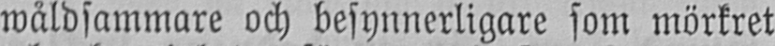wåldsammare och besynnerligare som mörkret
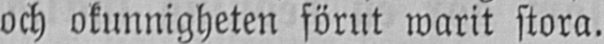och okunnigheten förut warit stora.
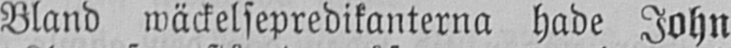Bland wäckelsepredikanterna hade John
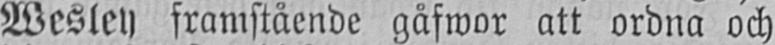Wesley framstående gåfwor att ordna och
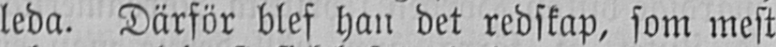leda. Därför blef han det redskap, som mest
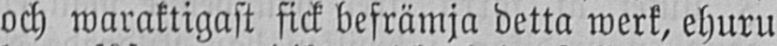och waraktigast fick befrämja detta werk, ehuru
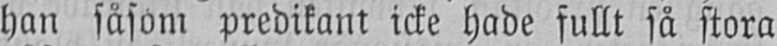han såsom predikant icke hade fullt så stora
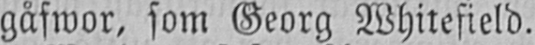gåfwor, som Georg Whitefield.
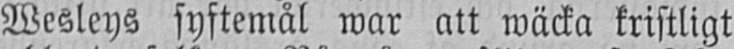Wesleys syftemål war att wäcka kristligt
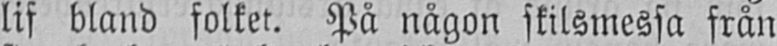lif bland folket. På någon skilsmessa från
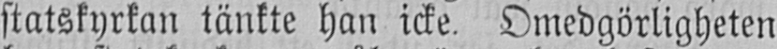statskyrkan tänkte han icke. Omedgörligheten
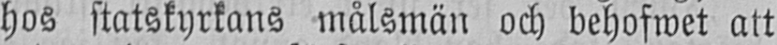hos statskyrkans målsmän och behofwet att
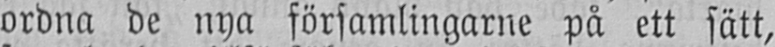ordna de nya församlingarne på ett sätt,
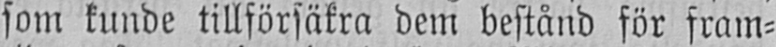som kunde tillförsäkra dem bestånd för fram-
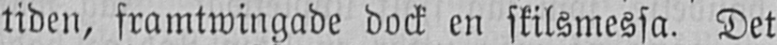tiden, framtwingade dock en skilsmessa. Det
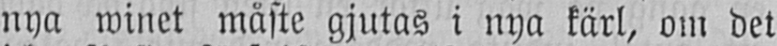nya winet måste gjutas i nya kärl, om det
